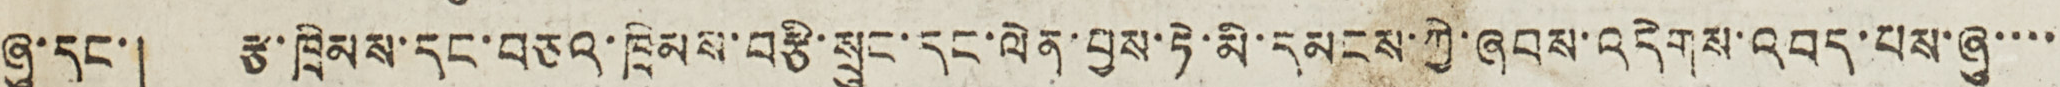ཞུ་དང་། རྩ་ཁྲིམས་དང་བཅའ་ཁྲིམས་བརྩི་སྲུང་དང་ལེན་བྱས་ཏེ་མི་དམངས་ཀྱི་ཞབས་འདེགས་འབད་པས་ཞུ་་་་
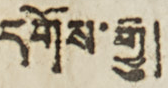དགོས་རྒྱུ།
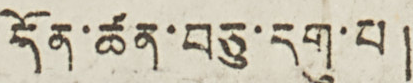དོན་ཚན་བཅུ་དགུ་པ།
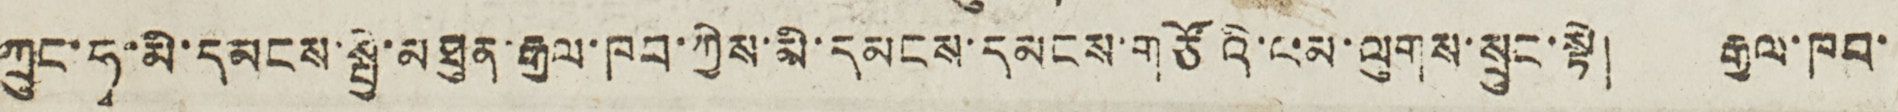ཀྲུང་ཧྭ་མི་དམངས་སྤྱི་མཐུན་རྒྱལ་ཁབ་ཀྱིས་མི་དམངས་དམངས་གཙོའི་ལམ་ལུགས་སྲུང་སྟེ། རྒྱལ་ཁབ་
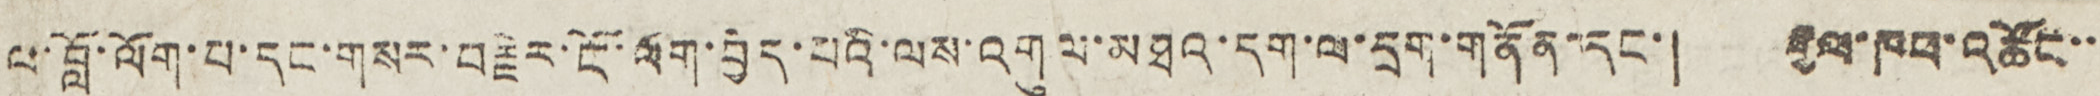ལ་བློ་ལོག་པ་དང་གསར་བརྗེར་ངོ་ལོག་བྱེད་པའི་ལས་འགུལ་མཐའ་དག་ལ་དྲག་གནོན་དང་། རྒྱལ་ཁབ་འཚོང་་
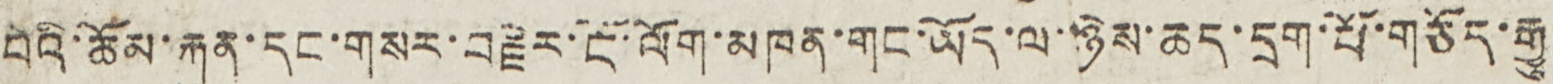བའི་ཆོམ་རྐུན་དང་གསར་བརྗེར་ངོ་ལོག་མཁན་གང་ཡོད་ལ་ཉེས་ཆད་དྲག་པོ་གཅོད་རྒྱུ།
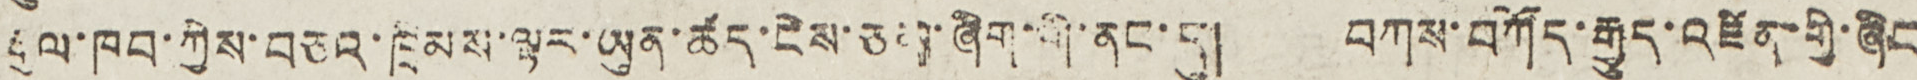རྒྱལ་ཁབ་ཀྱིས་བཅའ་ཁྲིམས་ལྟར་ཡུན་ཚད་ངེས་ཅན་ཞིག་གི་ནང་དུ། བཀས་བཀོད་རྒྱུད་འཛིན་གྱི་ཞིང
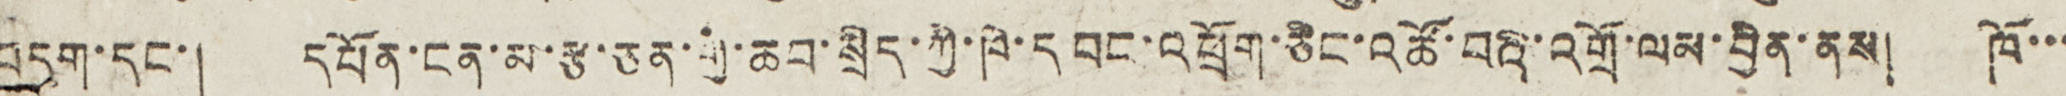བདག་དང་། དཔོན་ངན་མ་རྩ་ཅན་གྱི་ཆབ་སྲིད་ཀྱི་ཁེ་དབང་འཕྲོག་ཅིང་འཚོ་བའི་འགྲོ་ལམ་བྱིན་ནས། ཁོ་་་
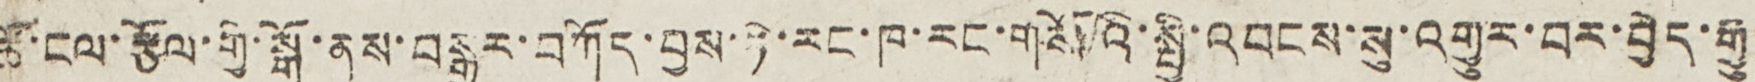ཚོ་ངལ་རྩོལ་གྱི་སྒོ་ནས་བསྒྱུར་བཀོད་བྱས་ཏེ་རང་ཁ་རང་གསོའི་སྤྱི་འབངས་སུ་འགྱུར་བར་བྱེད་རྒྱུ།
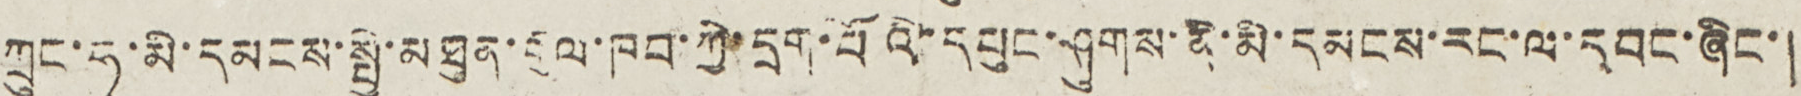ཀྲུང་ཧྭ་མི་དམངས་སྤྱི་མཐུན་རྒྱལ་ཁབ་ཀྱི་དྲག་པོའི་དཔུང་ཤུགས་ནི་མི་དམངས་རང་ལ་དབང་ཞིང་།
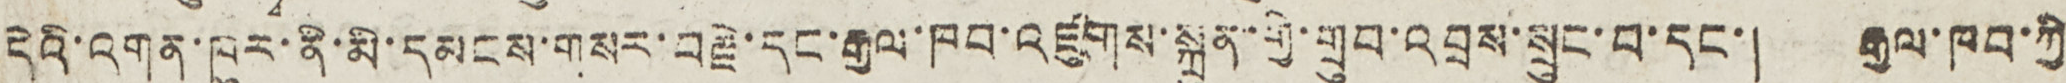དེའི་འགན་ཁུར་ནི་མི་དམངས་གསར་བརྗེ་དང་རྒྱལ་ཁབ་འཛུགས་སྐྲུན་གྱི་གྲུབ་འབྲས་སྲུང་བ་དང་། རྒྱལ་ཁབ་ཀྱི་
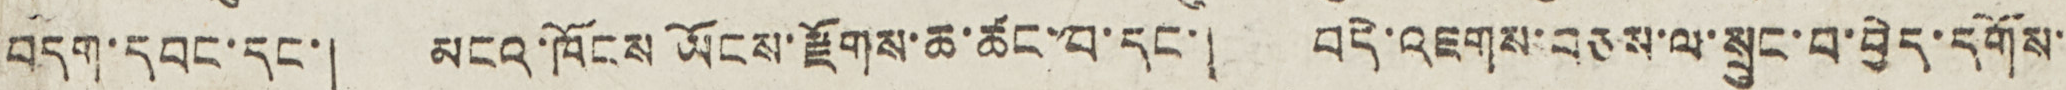བདག་དབང་དང་། མངའ་ཁོངས ཡོངས་རྫོགས་ཆ་ཚང་བ་དང་། བདེ་འཇགས་བཅས་ལ་སྲུང་བ་བྱེད་དགོས་་
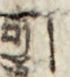རྒྱུ།
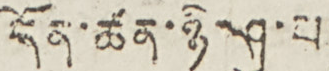དོན་ཚན་ཉི་ཤུ་པ།
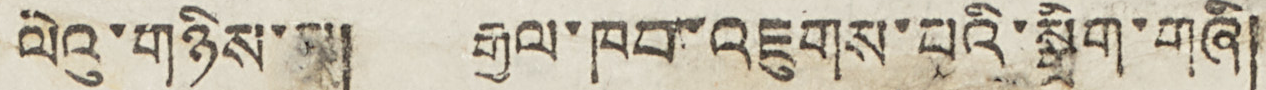ལེའུ་གཉིས་པ། རྒྱལ་ཁབ་འཇུགས་པའི་སྒྲིག་གཞི།
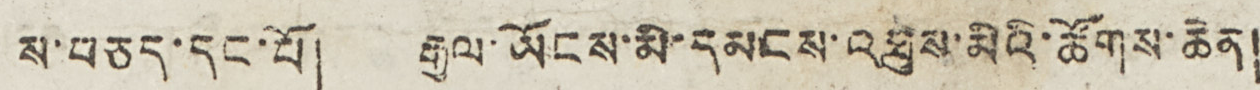ས་བཅད་དང་པོ། རྒྱལ་ཡོངས་མི་དམངས་འཐུས་མིའི་ཚོགས་ཆེན།
